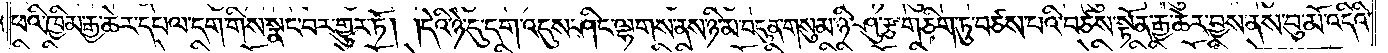ཕའི་ཁྱིམ་རྒྱ་ཆེར་དཔལ་དག་གིས་སྣང་བར་གྱུར་ཏོ། །དེའི་ཉེ་དུ་དག་འདུས་ཤིང་ལྷགས་ནས་ཉི་མ་བདུན་གསུམ་ཉི་ཤུ་རྩ་གཅིག་ཏུ་བཙས་པའི་བཙས་སྟོན་རྒྱ་ཆེར་བྱས་ནས་བུ་མོ་འདིའི་
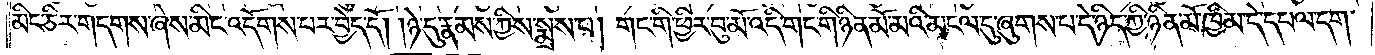མིང་ཅིར་གདགས་ཞེས་མིང་འདོགས་པར་བྱེད་དོ། །ཉེ་དུ་རྣམས་ཀྱིས་སྨྲས་པ། གང་གི་ཕྱིར་བུ་མོ་འདི་གང་གི་ཉིན་མོ་མའི་མངལ་དུ་ཞུགས་པ་དེ་ཉིད་ཀྱི་ཉིན་མོ་ཁྱིམ་དེ་དཔལ་དག་
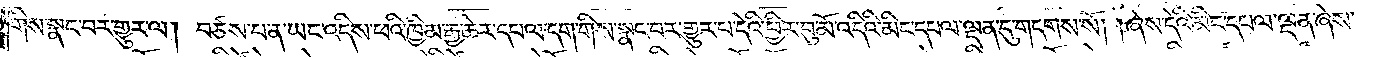གིས་སྣང་བར་གྱུར་ལ། བཙས་པ་ན་ཡང་འདིས་ཕའི་ཁྱིམ་རྒྱ་ཆེར་དཔལ་དག་གིས་སྣང་བར་གྱུར་པ་དེའི་ཕྱིར་བུ་མོ་འདིའི་མིང་དཔལ་ལྡན་དུ་གདགས་སོ། །ཞེས་དེའི་མིང་དཔལ་ལྡན་ཞེས་
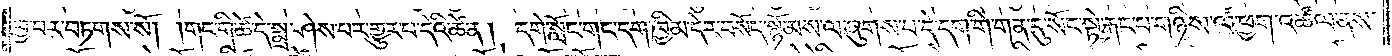བྱ་བར་བཏགས་སོ། །གང་གི་ཚེ་དེ་སྨྲ་ཤེས་པར་གྱུར་པ་དེའི་ཚེ་ན། དགེ་སློང་གང་དག་ཁྱིམ་དེར་བསོད་སྙོམས་ལ་ཞུགས་པ་དེ་དག་གི་གན་དུ་སོང་སྟེ་རྐང་པ་གཉིས་ལ་ཕྱག་འཚལ་ནས་
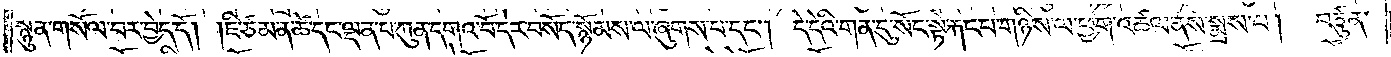སྙུན་གསོལ་བར་བྱེད་དོ། །ཇི་ཙམ་ན་ཚེ་དང་ལྡན་པ་ཀུན་དགའ་བོ་དེར་བསོད་སྙོམས་ལ་ཞུགས་པ་དང༌། དེ་དེའི་གན་དུ་སོང་སྟེ་རྐང་པ་གཉིས་ལ་ཕྱག་འཚལ་ནས་སྨྲས་པ། བཙུན་
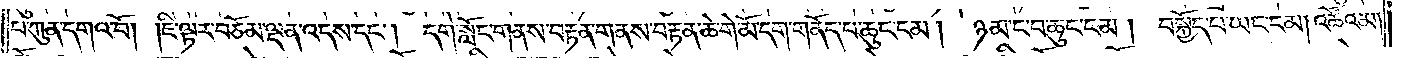པ་ཀུན་དགའ་བོ། །ཇི་ལྟར་བཅོམ་ལྡན་འདས་པ་དང༌། དགེ་སློང་གནས་བརྟན་གནས་བརྟན་ཆེ་གེ་མོ་དག་གནོད་པ་ཆུང་ངམ། ཉམ་ང་བ་ཆུང་ངམ། བསྐྱོད་པ་ཡང་ངམ། འཚོའམ།
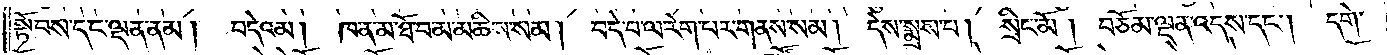སྟོབས་དང་ལྡན་ནམ། བདེའམ། ཁ་ན་མ་ཐོ་བ་མེ་མཆིས་སམ། བདེ་བ་ལ་རེག་པར་གནས་སམ། དེས་སྨྲས་པ། སྲིང་མོ། བཅོམ་ལྡན་འདས་དང༌། དགེ་
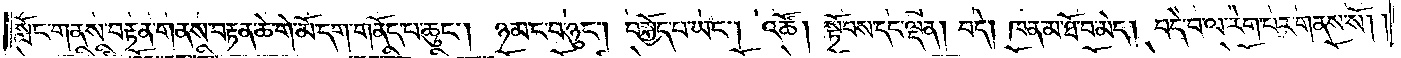སློང་གནས་བརྟན་གནས་བརྟན་ཆེ་གེ་མོ་དག་གནོད་པ་ཆུང༌། ཉམ་ང་བ་ཉུང༌། བསྐྱོད་པ་ཡང༌། འཚོ། སྟོབས་དང་ལྡན། བདེ། ཁ་ན་མ་ཐོ་བ་མེད། བདེ་བ་ལ་རེག་པར་གནས་སོ། །
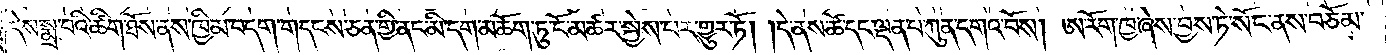དེས་སྨྲ་བའི་ཚིག་ཐོས་ནས་ཁྱིམ་བདག་གདངས་ཅན་གྱི་ནང་མི་དག་མཆོག་ཏུ་ངོ་མཚར་སྐྱེས་པར་གྱུར་ཏོ། །དེ་ནས་ཚེ་དང་ལྡན་པ་ཀུན་དགའ་བོས། ཨ་རོག་ཁྱ་ཞེས་བྱས་ཏེ་སོང་ནས་བཅོམ་
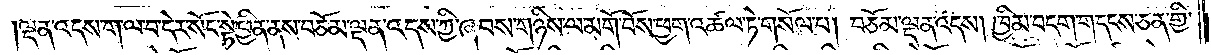ལྡན་འདས་ག་ལ་བ་དེར་སོང་སྟེ་ཕྱིན་ནས་བཅོམ་ལྡན་འདས་ཀྱི་ཞབས་གཉིས་ལ་མགོ་བོས་ཕྱག་འཚལ་ཏེ་གསོལ་པ། བཅོམ་ལྡན་འདས། ཁྱིམ་བདག་གདངས་ཅན་གྱི་
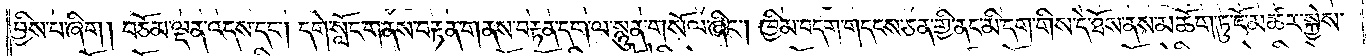བྱིས་པ་ཞིག། བཅོམ་ལྡན་འདས་དང༌། དགེ་སློང་གནས་བརྟན་གནས་བརྟན་དག་ལ་སྙུན་གསོལ་ཞིང༌། ཁྱིམ་བདག་གདངས་ཅན་གྱི་ནང་མི་དག་གིས་དེ་ཐོས་ནས་མཆོག་ཏུ་ངོ་མཚར་སྐྱེས་
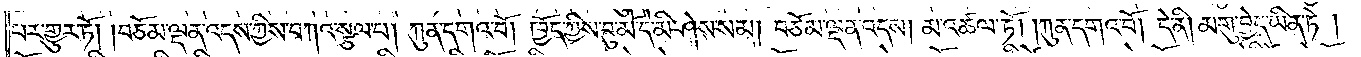པར་གྱུར་ཏོ། །བཅོམ་ལྡན་འདས་ཀྱིས་བཀའ་སྩལ་པ། ཀུན་དགའ་བོ། ཁྱོད་ཀྱིས་བུ་མོ་དེ་མི་ཤེས་སམ། བཅོམ་ལྡན་འདས། མ་འཚལ་ཏོ། །ཀུན་དགའ་བོ། དེ་ནི། མགུ་བྱེད་ཡིན་ཏེ་།
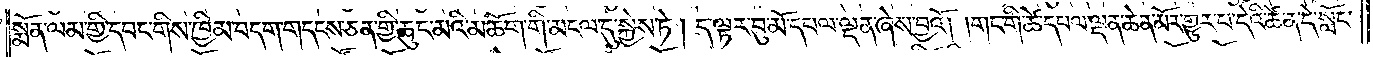སྨོན་ལམ་གྱི་དབང་གིས་ཁྱིམ་བདག་གདངས་ཅན་གྱི་ཆུང་མའི་མཆོག་གི་མངལ་དུ་སྐྱེས་ཏེ། ད་ལྟར་བུ་མོ་དཔལ་ལྡན་ཞེས་བྱའོ། །གང་གི་ཚེ་དཔལ་ལྡན་པ་ཆེན་མོར་གྱུར་པ་དེའི་ཚེ་ན་དེ་སློང་
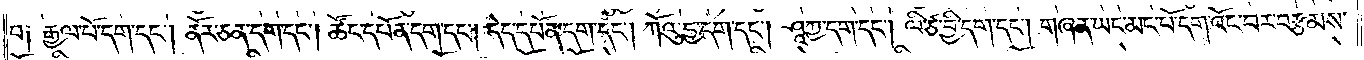བ༑ རྒྱལ་པོ་དག་དང༌། ནོར་ཅན་དག་དང༌། ཚོང་དཔོན་དག་དང༌། དེད་དཔོན་དག་དང༌། ཀོའུ་དྱ་དག་དང༌། ཤཱཀྱ་དག་དང༌། ལི་ཙ་བྱི་དག་དང༌། གཞན་ཡང་མང་པོ་དག་འོང་བར་བརྩམས་
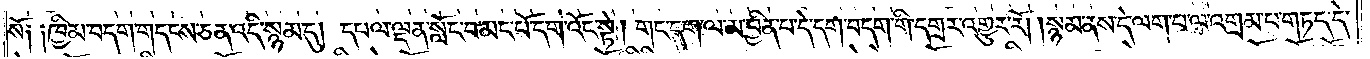སོ༑ ༑ཁྱིམ་བདག་གདངས་ཅན་འདི་སྙམ་དུ། དཔལ་ལྡན་སློང་བ་མང་པོ་དག་འོང་སྟེ། གང་དག་ལ་མ་བྱིན་པ་དེ་དག་བདག་གི་དགྲར་འགྱུར་རོ། །སྙམ་ནས་དེ་ལག་པ་ལ་འགྲམ་པ་གཏད་དེ་
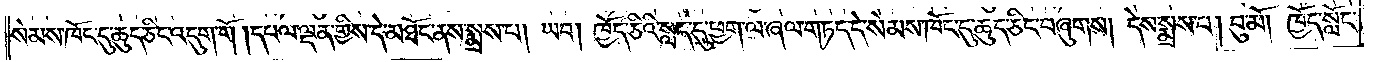སེམས་ཁོང་དུ་ཆུད་ཅིང་འདུག་གོ །དཔལ་ལྡན་གྱིས་དེ་མཐོང་ནས་སྨྲས་པ། ཡབ། ཁྱོད་ཅིའི་སླད་དུ་ཕྱག་ལ་ཞལ་གཏད་དེ་སེམས་ཁོང་དུ་ཆུད་ཅིང་བཞུགས། དེས་སྨྲས་པ། བུ་མོ། ཁྱོད་སློང་
